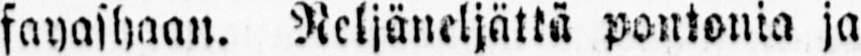fayashaan. Neljäneljättä pontonia ja
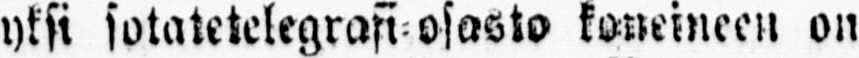yksi sotatetelegrafi-osasto koneineen on
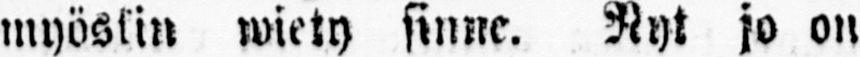myöskin wiety sinne. Nyt jo on
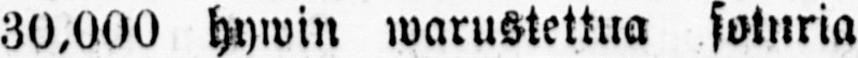30,000 hywin warustettua soturia
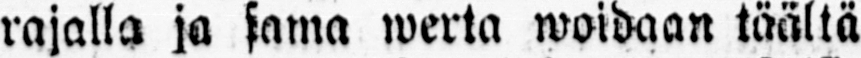rajalla ja sama werta woidaan täältä
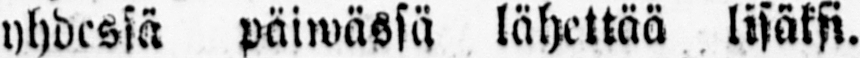yhdessä päiwässä lähettää lisäksi.
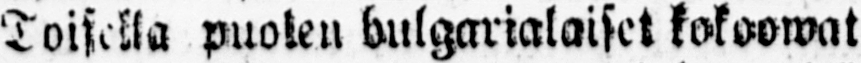Toisella puolen bulgarialaiset kokoowat
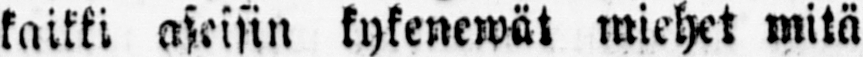kaikki aseisin kykenewät miehet mitä
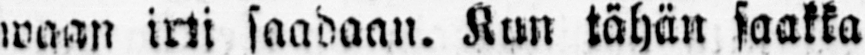waan irti saadaan. Kun tähän saakka
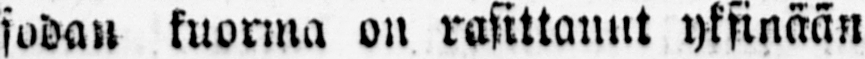sodan kuorina on rasittanut yksinään
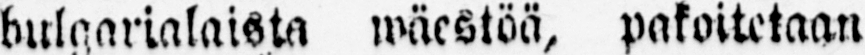bulgarialaista wäestöä, pakoitetaan
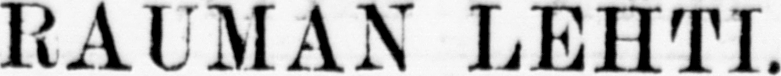RAUMAN LEHTI.
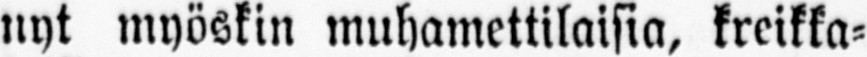nyt myöskin muhamettilaisia, kreikka-
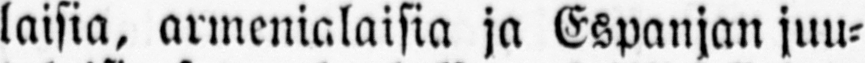laisia, armenialaisia ja Espanjan juu-
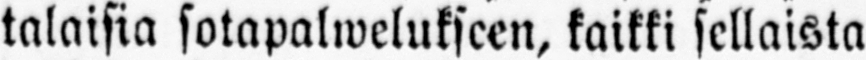talaisia sotapalwelukscen, kaikki sellaista
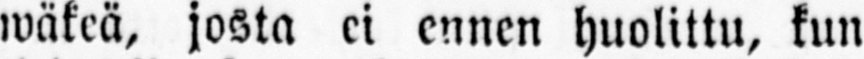wäkeä, josta ei ennen huolittu, kun
